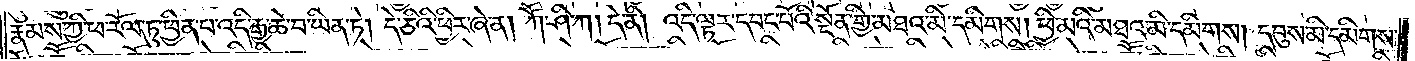རྣམས་ཀྱི་ཕ་རོལ་ཏུ་ཕྱིན་པ་འདི་རྒྱ་ཆེ་བ་ཡིན་ཏེ། དེ་ཅིའི་ཕྱིར་ཞེ་ན། ཀཽ་ཤི་ཀ། དེ་ནི། འདི་ལྟར་དབང་པོའི་སྔོན་གྱི་མཐའ་མི་དམིགས། ཕྱི་མའི་མཐའ་མི་དམིགས། དབུས་མི་དམིགས་
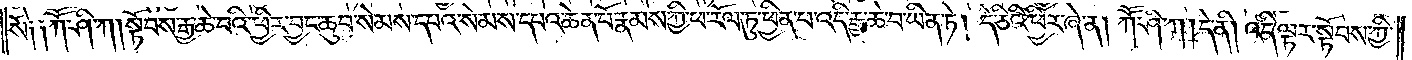སོ༑ ༑ཀཽ་ཤི་ཀ། སྟོབས་རྒྱ་ཆེ་བའི་ཕྱིར་བྱང་ཆུབ་སེམས་དཔའ་སེམས་དཔའ་ཆེན་པོ་རྣམས་ཀྱི་ཕ་རོལ་ཏུ་ཕྱིན་པ་འདི་རྒྱ་ཆེ་བ་ཡིན་ཏེ། དེ་ཅིའི་ཕྱིར་ཞེ་ན། ཀཽ་ཤི་ཀ། དེ་ནི། འདི་ལྟར་སྟོབས་ཀྱི་
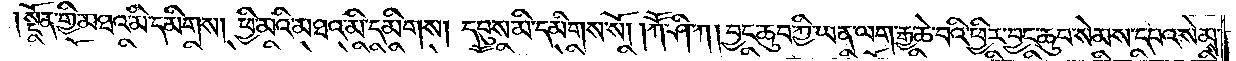སྔོན་གྱི་མཐའ་མི་དམིགས། ཕྱི་མའི་མཐའ་མི་དམིགས། དབུས་མི་དམིགས་སོ། །ཀཽ་ཤི་ཀ། བྱང་ཆུབ་ཀྱི་ཡན་ལག་རྒྱ་ཆེ་བའི་ཕྱིར་བྱང་ཆུབ་སེམས་དཔའ་སེམས་
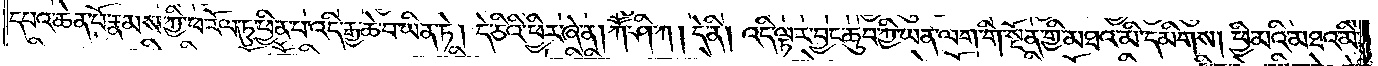དཔའ་ཆེན་པོ་རྣམས་ཀྱི་ཕ་རོལ་ཏུ་ཕྱིན་པ་འདི་རྒྱ་ཆེ་བ་ཡིན་ཏེ། དེ་ཅིའི་ཕྱིར་ཞེ་ན། ཀཽ་ཤི་ཀ། དེ་ནི། འདི་ལྟར་བྱང་ཆུབ་ཀྱི་ཡན་ལག་གི་སྔོན་གྱི་མཐའ་མི་དམིགས། ཕྱི་མའི་མཐའ་མི་
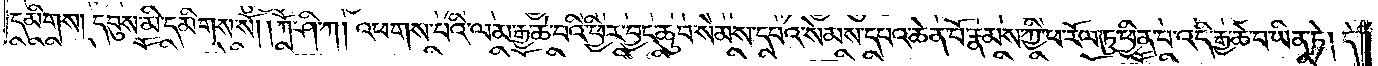དམིགས། དབུས་མི་དམིགས་སོ། །ཀཽ་ཤི་ཀ། འཕགས་པའི་ལམ་རྒྱ་ཆེ་བའི་ཕྱིར་བྱང་ཆུབ་སེམས་དཔའ་སེམས་དཔའ་ཆེན་པོ་རྣམས་ཀྱི་ཕ་རོལ་ཏུ་ཕྱིན་པ་འདི་རྒྱ་ཆེ་བ་ཡིན་ཏེ། དེ་
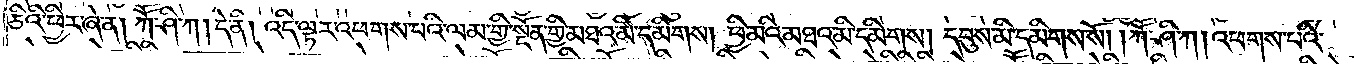ཅིའི་ཕྱིར་ཞེ་ན། ཀཽ་ཤི་ཀ། དེ་ནི། འདི་ལྟར་འཕགས་པའི་ལམ་གྱི་སྔོན་གྱི་མཐའ་མི་དམིགས། ཕྱི་མའི་མཐའ་མི་དམིགས། དབུས་མི་དམིགས་སོ། །ཀཽ་ཤི་ཀ། འཕགས་པའི་
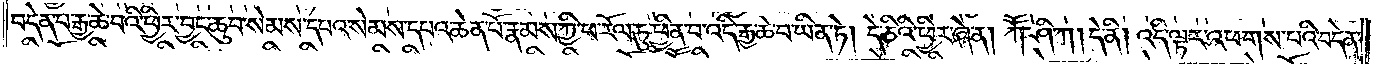བདེན་པ་རྒྱ་ཆེ་བའི་ཕྱིར་བྱང་ཆུབ་སེམས་དཔའ་སེམས་དཔའ་ཆེན་པོ་རྣམས་ཀྱི་ཕ་རོལ་ཏུ་ཕྱིན་པ་འདི་རྒྱ་ཆེ་བ་ཡིན་ཏེ། དེ་ཅིའི་ཕྱིར་ཞེ་ན། ཀཽ་ཤི་ཀ། དེ་ནི། འདི་ལྟར་འཕགས་པའི་བདེན་
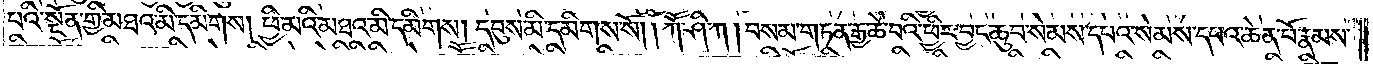པའི་སྔོན་གྱི་མཐའ་མི་དམིགས། ཕྱི་མའི་མཐའ་མི་དམིགས། དབུས་མི་དམིགས་སོ། །ཀཽ་ཤི་ཀ། བསམ་གཏན་རྒྱ་ཆེ་བའི་ཕྱིར་བྱང་ཆུབ་སེམས་དཔའ་སེམས་དཔའ་ཆེན་པོ་རྣམས་
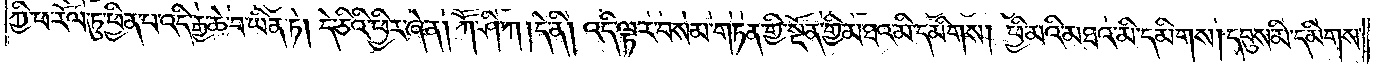ཀྱི་ཕ་རོལ་ཏུ་ཕྱིན་པ་འདི་རྒྱ་ཆེ་བ་ཡིན་ཏེ། དེ་ཅིའི་ཕྱིར་ཞེ་ན། ཀཽ་ཤི་ཀ། དེ་ནི། འདི་ལྟར་བསམ་གཏན་གྱི་སྔོན་གྱི་མཐའ་མི་དམིགས། ཕྱི་མའི་མཐའ་མི་དམིགས། དབུས་མི་དམིགས་
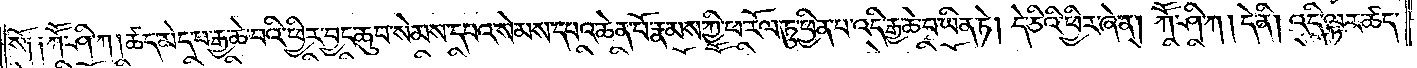སོ། །ཀཽ་ཤི་ཀ། ཚད་མེད་པ་རྒྱ་ཆེ་བའི་ཕྱིར་བྱང་ཆུབ་སེམས་དཔའ་སེམས་དཔའ་ཆེན་པོ་རྣམས་ཀྱི་ཕ་རོལ་ཏུ་ཕྱིན་པ་འདི་རྒྱ་ཆེ་བ་ཡིན་ཏེ། དེ་ཅིའི་ཕྱིར་ཞེ་ན། ཀཽ་ཤི་ཀ། དེ་ནི། འདི་ལྟར་ཚད་
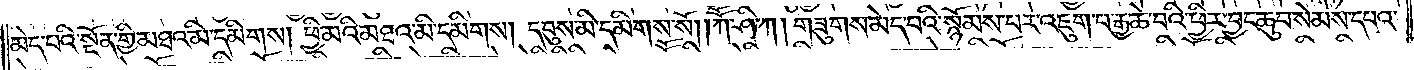མེད་པའི་སྔོན་གྱི་མཐའ་མི་དམིགས་ཕྱི་མའི་མཐའ་མི་དམིགས། དབུས་མི་དམིགས་སོ། །ཀཽ་ཤི་ཀ། གཟུགས་མེད་པའི་སྙོམས་པར་འཇུག་པ་རྒྱ་ཆེ་བའི་ཕྱིར་བྱང་ཆུབ་སེམས་དཔའ་
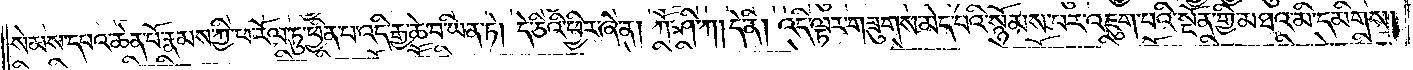སེམས་དཔའ་ཆེན་པོ་རྣམས་ཀྱི་ཕ་རོལ་ཏུ་ཕྱིན་པ་འདི་རྒྱ་ཆེ་བ་ཡིན་ཏེ། དེ་ཅིའི་ཕྱིར་ཞེ་ན། ཀཽ་ཤི་ཀ། དེ་ནི། འདི་ལྟར་གཟུགས་མེད་པའི་སྙོམས་པར་འཇུག་པའི་སྔོན་གྱི་མཐའ་མི་དམིགས།
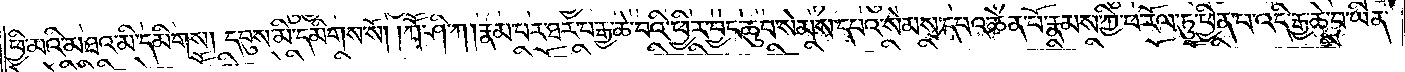ཕྱི་མའི་མཐའ་མི་དམིགས། དབུས་མི་དམིགས་སོ། །ཀཽ་ཤི་ཀ། རྣམ་པར་ཐར་པ་རྒྱ་ཆེ་བའི་ཕྱིར་བྱང་ཆུབ་སེམས་དཔའ་སེམས་དཔའ་ཆེན་པོ་རྣམས་ཀྱི་ཕ་རོལ་ཏུ་ཕྱིན་པ་འདི་རྒྱ་ཆེ་བ་ཡིན་
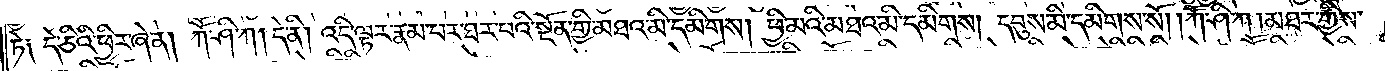ཏེ། དེ་ཅིའི་ཕྱིར་ཞེ་ན། ཀཽ་ཤི་ཀ། དེ་ནི། འདི་ལྟར་རྣམ་པར་ཐར་པའི་སྔོན་གྱི་མཐའ་མི་དམིགས། ཕྱི་མའི་མཐའ་མི་དམིགས། དབུས་མི་དམིགས་སོ། །ཀཽ་ཤི་ཀ། མཐར་གྱིས་
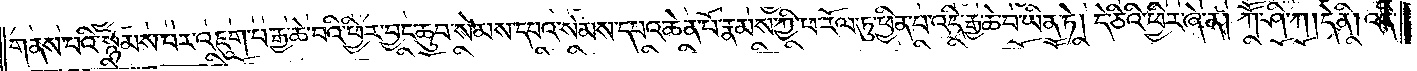གནས་པའི་སྙོམས་པར་འཇུག་པ་རྒྱ་ཆེ་བའི་ཕྱིར་བྱང་ཆུབ་སེམས་དཔའ་སེམས་དཔའ་ཆེན་པོ་རྣམས་ཀྱི་ཕ་རོལ་ཏུ་ཕྱིན་པ་འདི་རྒྱ་ཆེ་བ་ཡིན་ཏེ། དེ་ཅིའི་ཕྱིར་ཞེ་ན། ཀཽ་ཤི་ཀ། དེ་ནི། འདི་
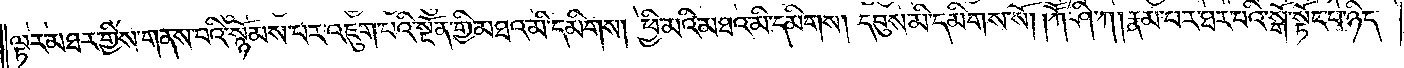ལྟར་མཐར་གྱིས་གནས་པའི་སྙོམས་པར་འཇུག་པའི་སྔོན་གྱི་མཐའ་མི་དམིགས། ཕྱི་མའི་མཐའ་མི་དམིགས། དབུས་མི་དམིགས་སོ། །ཀཽ་ཤི་ཀ། རྣམ་པར་ཐར་པའི་སྒོ་སྟོང་པ་ཉིད་
